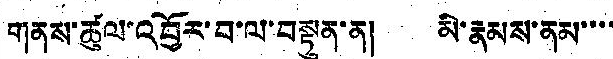གནས་ཚུལ་འབྱོར་བ་ལ་བསྟུན་ན། མི་རྣམས་ནམ་་་་
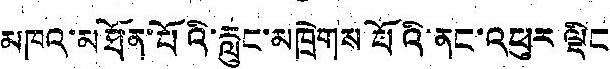མཁའ་མཐོན་པོའི་རླུང་མཁྲེགས པོའི་ནང་འཕུར་ལྡིང
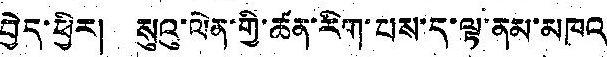བྱེད་ཕྱིར། སུའུ་ལེན་གྱི་ཚན་རིག་པས་ད་ལྟ་ནམ་མཁའ
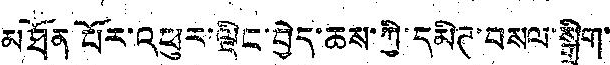མཐོན པོར་འཕུར་ལྡིང་བྱེད་ཆས་ཀྱི་དམིཊ་བསལ་སྒྲིག་
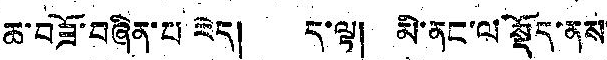ཆ་བཟོ་བཞིན་པ རེད། ད་ལྟ། མི་ནང་ལ སྡོད་ནས་
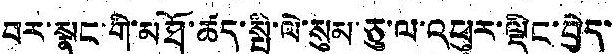བར་སྣང་གི་མཐོ་ཚད་སྤྱི་ལེ་སུམ་ཅུ་ལ་འཕུར་ལྡིང་བྱེད་
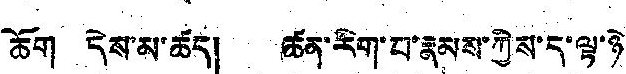ཆོག དེས་མ་ཚད། ཚན་རིག་པ་རྣམས་ཀྱིས་ད་ལྟ་ཉེ
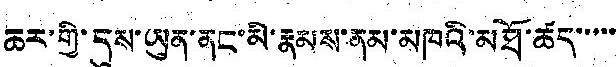ཆར་གྱི་དུས་ཡུན་ནང་མི་རྣམས་ནམ་མཁའི་མཐོ་ཚད་་་་་
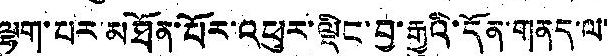ལྷག་པར་མཐོན་པོར་འཕུར་ལྡིང་བྱ་རྒྱུའི་དོན་གནད་ལ་
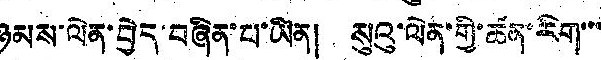ཉམས་ལེན་བྱེད་བཞིན་པ་ཡིན། སུའུ་ལེན་གྱི་ཚན་རིག་་་
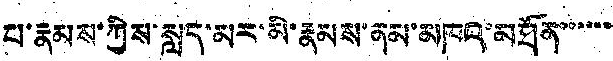པ་རྣམས་ཀྱིས་སླད་མར་མི་རྣམས་ནམ་མཁའ་མཐོན་་་་་་
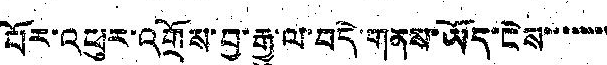པོར་འཕུར་འགྲོས་བྱ་རྒྱུ་ལ་བདེ་གནས་ཡོད་ངེས་་་་་་་་
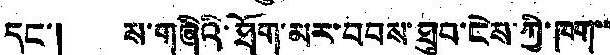དང་། ས་གཞིའི་ཐོག་མར་བབས་ཐུབ་ངེས་ཀྱི་ཁག་་
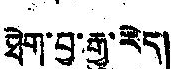ཐེག་བྱ་རྒྱུ་རེད།
